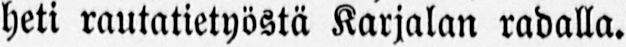heti rautatietyöstä Karjalan radalla.
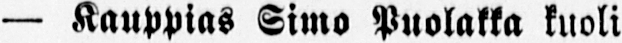— Kauppias Simo Puolakka kuoli
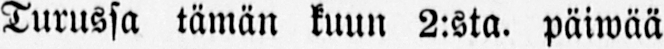Turussa tämän kuun 2:sta. päiwää
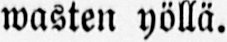wasten yöllä.
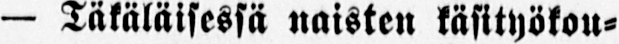— Täkäläisessä naisten käsityökou-
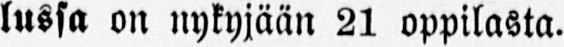lussa on nykyjään 21 oppilasta.
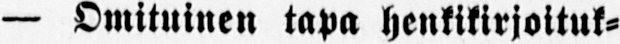— Omituinen tapa henkikirjoituk-
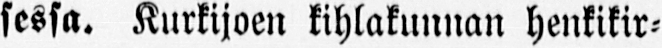sessa. Kurkijoen kihlakunnan henkikir-
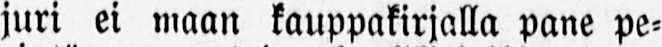jan ei maan kauppakirjalla pane pe-
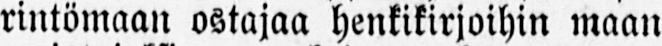rintömään ostajaa henkikirjoihin maan
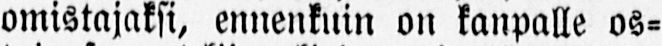omistajaksi, ennenkuin on kaupalle os-
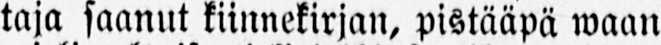taja saanut kiinnekirjan, pistääpä waan
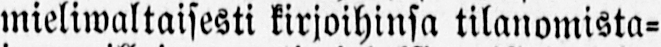mieliwaltaisesti kirjoihinsa tilanomista-
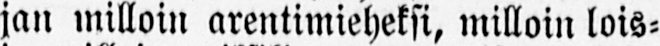jan milloin arentimieheksi, milloin lois-
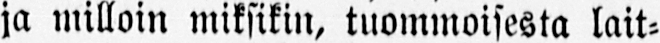ia milloin miksikin, tuommoisesta lait-
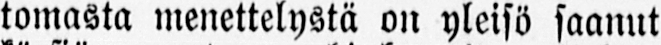tomasta menettelystä on yleisö saanut
